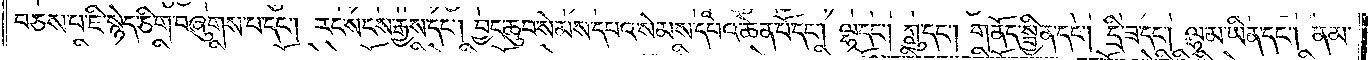བཅས་པ་ཇི་སྙེད་ཅིག་བཞུགས་པ་དང༌། རང་སངས་རྒྱས་དང༌། བྱང་ཆུབ་སེམས་དཔའ་སེམས་དཔའ་ཆེན་པོ་དང༌། ལྷ་དང༌། ཀླུ་དང༌། གནོད་སྦྱིན་དང༌། དྲི་ཟ་དང༌། ལྷ་མ་ཡིན་དང༌། ནམ་
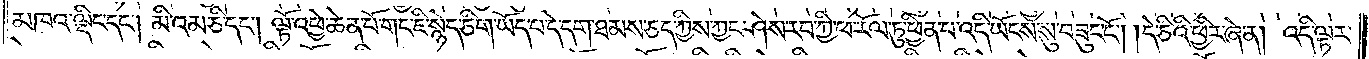མཁའ་ལྡིང་དང༌། མིའམ་ཅི་དང༌། ལྟོ་འཕྱེ་ཆེན་པོ་གང་ཇི་སྙེད་ཅིག་ཡོད་པ་དེ་དག་ཐམས་ཅད་ཀྱིས་ཀྱང་ཤེས་རབ་ཀྱི་ཕ་རོལ་ཏུ་ཕྱིན་པ་འདི་ཡོངས་སུ་བཟུང་ངོ༌། །དེ་ཅིའི་ཕྱིར་ཞེ་ན། འདི་ལྟར་
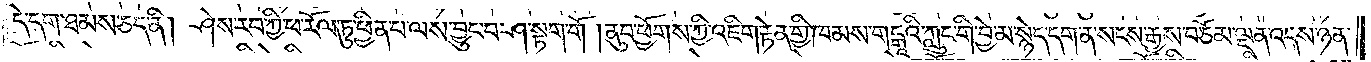དེ་དག་ཐམས་ཅད་ནི། ཤེས་རབ་ཀྱི་ཕ་རོལ་ཏུ་ཕྱིན་པ་ལས་བྱུང་བ་ཤ་སྟག་གོ །ནུབ་ཕྱོགས་ཀྱི་འཇིག་རྟེན་གྱི་ཁམས་གངྒཱའི་ཀླུང་གི་བྱེ་མ་སྙེད་དག་ན་སངས་རྒྱས་བཅོམ་ལྡན་འདས་ཉན་
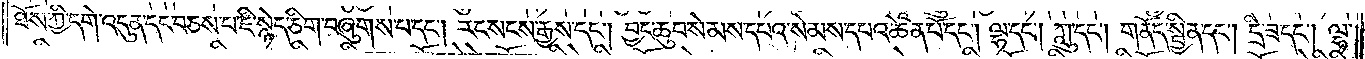ཐོས་ཀྱི་དགེ་འདུན་དང་བཅས་པ་ཇི་སྙེད་ཅིག་བཞུགས་པ་དང༌། རང་སངས་རྒྱས་དང༌། བྱང་ཆུབ་སེམས་དཔའ་སེམས་དཔའ་ཆེན་པོ་དང༌། ལྷ་དང༌། ཀླུ་དང༌། གནོད་སྦྱིན་དང༌། དྲི་ཟ་དང༌། ལྷ་
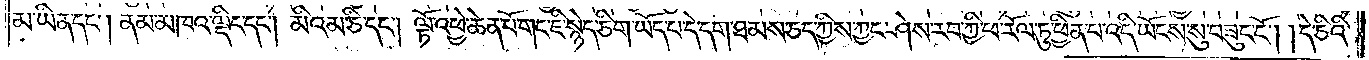མ་ཡིན་དང༌། ནམ་མཁའ་ལྡིང་དང༌། མི་འམ་ཅི་དང༌། ལྟོ་འཕྱེ་ཆེན་པོ་གང་ཇི་སྙེད་ཅིག་ཡོད་པ་དེ་དག་ཐམས་ཅད་ཀྱིས་ཀྱང་ཤེས་རབ་ཀྱི་ཕ་རོལ་ཏུ་ཕྱིན་པ་འདི་ཡོངས་སུ་བཟུང་ངོ༌། །དེ་ཅིའི་
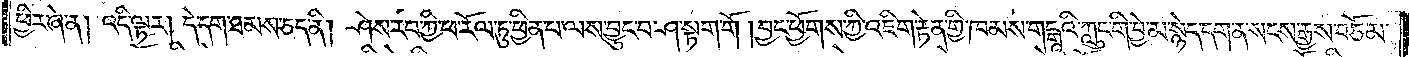ཕྱིར་ཞེ་ན། འདི་ལྟར། དེ་དག་ཐམས་ཅད་ནི། ཤེས་རབ་ཀྱི་ཕ་རོལ་ཏུ་ཕྱིན་པ་ལས་བྱུང་བ་ཤ་སྟག་གོ །བྱང་ཕྱོགས་ཀྱི་འཇིག་རྟེན་གྱི་ཁམས་གངྒཱའི་ཀླུང་གི་བྱེ་མ་སྙེད་དག་ན་སངས་རྒྱས་བཅོམ་
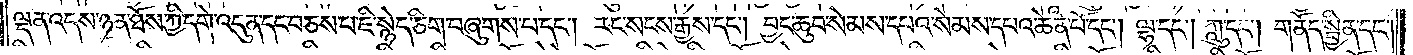ལྡན་འདས་ཉན་ཐོས་ཀྱི་དགེ་འདུན་དང་བཅས་པ་ཇི་སྙེད་ཅིག་བཞུགས་པ་དང༌། རང་སངས་རྒྱས་དང༌། བྱང་ཆུབ་སེམས་དཔའ་སེམས་དཔའ་ཆེན་པོ་དང༌། ལྷ་དང༌། ཀླུ་དང༌། གནོད་སྦྱིན་དང༌།
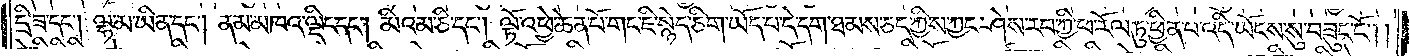དྲི་ཟ་དང༌། ལྷ་མ་ཡིན་དང༌། ནམ་མཁའ་ལྡིང་དང༌། མིའམ་ཅི་དང༌། ལྟོ་འཕྱེ་ཆེན་པོ་གང་ཇི་སྙེད་ཅིག་ཡོད་པ་དེ་དག་ཐམས་ཅད་ཀྱིས་ཀྱང་ཤེས་རབ་ཀྱི་ཕ་རོལ་ཏུ་ཕྱིན་པ་འདི་ཡོངས་སུ་བཟུང་ངོ༌༎
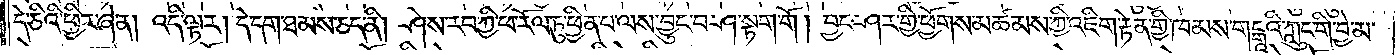དེ་ཅིའི་ཕྱིར་ཞེ་ན། འདི་ལྟར། དེ་དག་ཐམས་ཅད་ནི། ཤེས་རབ་ཀྱི་ཕ་རོལ་ཏུ་ཕྱིན་པ་ལས་བྱུང་བ་ཤ་སྟག་གོ །བྱང་ཤར་གྱི་ཕྱོགས་མཚམས་ཀྱི་འཇིག་རྟེན་གྱི་ཁམས་གངྒཱའི་ཀླུང་གི་བྱེ་མ་
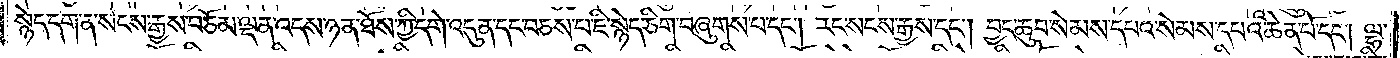སྙེད་དག་ན་སངས་རྒྱས་བཅོམ་ལྡན་འདས་ཉན་ཐོས་ཀྱི་དགེ་འདུན་དང་བཅས་པ་ཇི་སྙེད་ཅིག་བཞུགས་པ་དང༌། རང་སངས་རྒྱས་དང༌། བྱང་ཆུབ་སེམས་དཔའ་སེམས་དཔའ་ཆེན་པོ་དང༌། ལྷ་
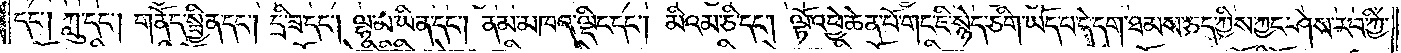དང༌། ཀླུ་དང༌། གནོད་སྦྱིན་དང༌། དྲི་ཟ་དང༌། ལྷ་མ་ཡིན་དང༌། ནམ་མཁའ་ལྡིང་དང༌། མིའམ་ཅི་དང༌། ལྟོ་འཕྱེ་ཆེན་པོ་གང་ཇི་སྙེད་ཅིག་ཡོད་པ་དེ་དག་ཐམས་ཅད་ཀྱིས་ཀྱང་ཤེས་རབ་ཀྱི་
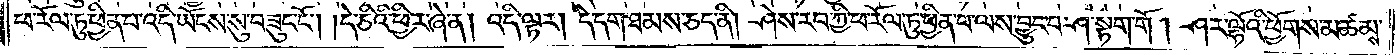ཕ་རོལ་ཏུ་ཕྱིན་པ་འདི་ཡོངས་སུ་བཟུང་ངོ༌། །དེ་ཅིའི་ཕྱིར་ཞེ་ན། འདི་ལྟར། དེ་དག་ཐམས་ཅད་ནི། ཤེས་རབ་ཀྱི་ཕ་རོལ་ཏུ་ཕྱིན་པ་ལས་བྱུང་བ་ཤ་སྟག་གོ །ཤར་ལྷོའི་ཕྱོགས་མཚམས་
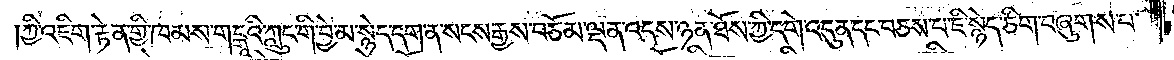ཀྱི་འཇིག་རྟེན་གྱི་ཁམས་གངྒཱའི་ཀླུང་གི་བྱེ་མ་སྙེད་དག་ན་སངས་རྒྱས་བཅོམ་ལྡན་འདས་ཉན་ཐོས་ཀྱི་དགེ་འདུན་དང་བཅས་པ་ཇི་སྙེད་ཅིག་བཞུགས་པ་
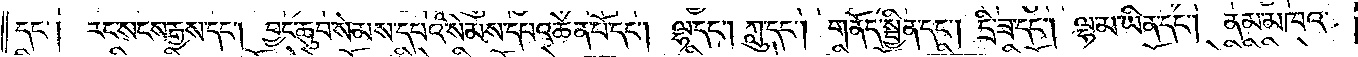དང༌། རང་སངས་རྒྱས་དང༌། བྱང་ཆུབ་སེམས་དཔའ་སེམས་དཔའ་ཆེན་པོ་དང༌། ལྷ་དང༌། ཀླུ་དང༌། གནོད་སྦྱིན་དང༌། དྲི་ཟ་དང༌། ལྷ་མ་ཡིན་དང༌། ནམ་མཁའ་
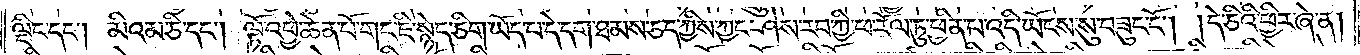ལྡིང་དང༌། མིའམ་ཅི་དང༌། ལྟོ་འཕྱེ་ཆེན་པོ་གང་ཇི་སྙེད་ཅིག་ཡོད་པ་དེ་དག་ཐམས་ཅད་ཀྱིས་ཀྱང་ཤེས་རབ་ཀྱི་ཕ་རོལ་ཏུ་ཕྱིན་པ་འདི་ཡོངས་སུ་བཟུང་ངོ༌། །དེ་ཅིའི་ཕྱིར་ཞེ་ན།
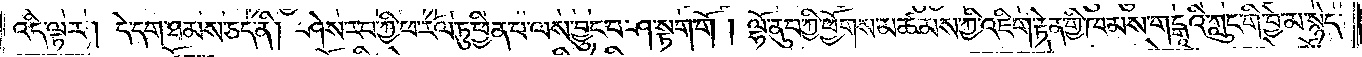འདི་ལྟར། དེ་དག་ཐམས་ཅད་ནི། ཤེས་རབ་ཀྱི་ཕ་རོལ་ཏུ་ཕྱིན་པ་ལས་བྱུང་བ་ཤ་སྟག་གོ། །ལྷོ་ནུབ་ཀྱི་ཕྱོགས་མཚམས་ཀྱི་འཇིག་རྟེན་གྱི་ཁམས་གངྒཱའི་ཀླུང་གི་བྱེ་མ་སྙེད་
